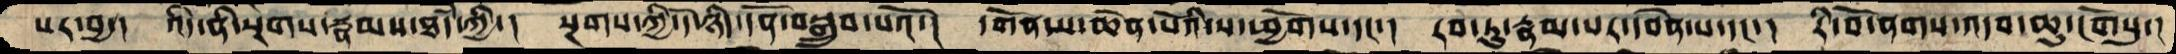པར་བྱ་།  འདི་ནི་སྔགས་རྣམས་ཐཾད་ཀྱི་།  སྔགས་ཀྱི་དེ་ཉིད་དོན་བསྒྲུབ་པའོ་།  དགོན་པ་ཆེན་པོའི་ས་ཕྱྱོགས་དང་།  རབ་ཏུ་རྣམ་པར་དབེན་པ་དང་།  རི་བོ་ནགས་འདབ་ཆུ་ངོགསུ་།
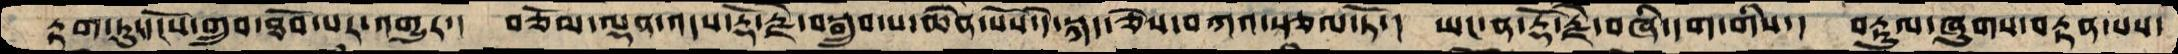རྟག་ཏུ་དངོས་གྲུབ་ཐོབ་པར་འགྱུར་།  བཅོམ་ལྡན་འདས་རྡོ་རྗེ་བསྒྲུབ་པ་ཆེན་པོས་དེ་སྐད་ཅེས་བཀའ་སྩལ་ཏོ་།  ཡང་ན་རྡོ་རྗེ་བཞི་དག་གིས་།  བརྟུལ་ཞུགས་བརྟན་པས་
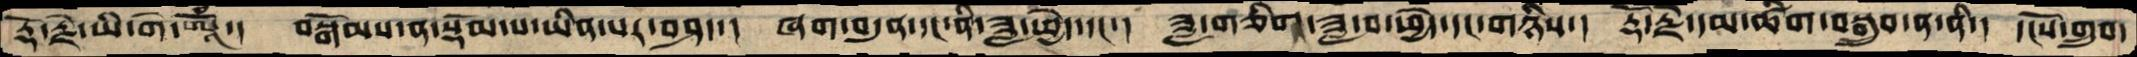རྡོ་རྗེ་ཡི་གེ་ཨཱོཾ་།  བསྒོམས་ན་སྡོམ་པ་ཡིན་པར་བཤད་།  ཞག་བདུན་དང་ནི་ཟླ་ཕྱེད་དང་།  ཟླ་གཅིག་ཟླ་བ་ཕྱེད་དང་གཉིས་།  རྡོ་རྗེ་དམ་ཚིག་བསྒྲུབ་ན་ནི་།  དངོས་གྲུབ་
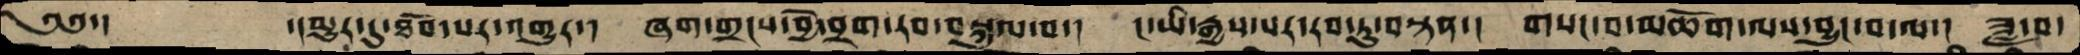༄༅་།   ་།མྱུར་དུ་ཐོབ་པར་འགྱུར་།  ཞག་གྲངས་བྱེ་བྲག་རབ་བསྐུལ་བ་།  ང་ཡིས་རྒྱས་པར་རབ་ཏུ་བསྟན་།  གསང་བ་མཆོག་ལས་བྱུང་བ་ལ་།  ཟླ་བ་
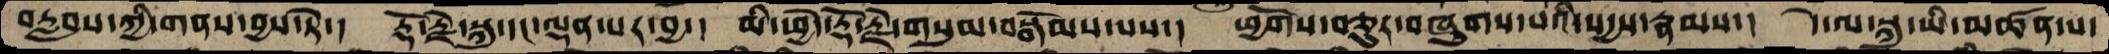བརླབས་ཀྱི་གནས་བྱས་ཏེ་།  རྡོ་རྗེ་སྐུ་དང་ལྡན་པར་བྱ་།  མི་ཕྱེད་རྡོ་རྗེ་གསུམ་བསྒོམས་པས་།  ཕྱོགས་བཅུར་བཞུགས་པའི་སདྱས་རྣམས་།  དེ་ལ་སྐུ་ཡི་མཚན་པ་
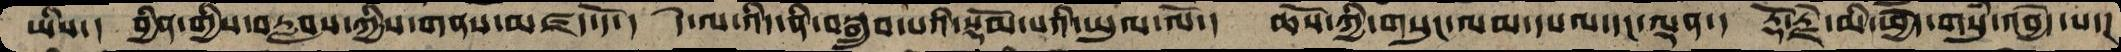ཡིས་།  བྱིན་གྱིས་བརླབས་ཀྱིས་གནས་མཛད་དོ་།  དེ་ལ་འདི་ནི་བསྒྲུབ་པའིི་སྡོམ་པའི་ཡུལ་ལོ་།  ཆོས་ཀྱི་གསུང་ལམ་དཔལ་དང་ལྡན་།  རྡོ་རྗེ་མི་ཕྱེད་གསུཾ་འབྱེད་པ་།
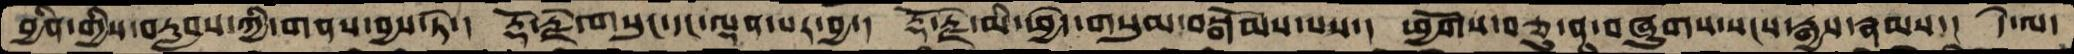བྱིན་གྱིས་བརླབས་ཀྱི་གནས་བྱས་ཏེ་།  རྡོ་རྗེ་གསུང་དང་ལྡན་པར་བྱ་།  རྡོ་རྗེ་མི་ཕྱེད་གསུམ་བསྒོམས་པས་།   ཕྱོགས་བཅུ་ན་བཞུགས་སངས་རྒྱས་རྣམས་།   དེ་ལ་
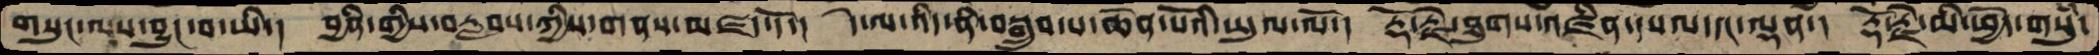གསུང་ལས་བྱང་བ་ཡི་།  བྱིན་གྱིས་བརླབས་ཀྱིས་གནས་མཛད་དོ་།   དེ་ལ་འདི་ནི་བསྒྲུབ་པ་ཆེན་པོའི་ཡུལ་ལོ་།  རྡོ་རྗེ་ཐུགས་འཛིན་དཔལ་དང་ལྡན་།  རྡོ་རྗེ་མི་ཕྱེད་གསུཾ་
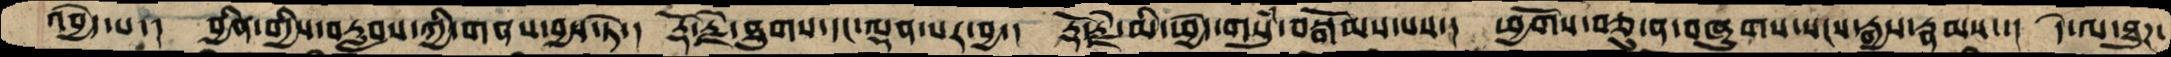འབྱེད་པ་།  བྱིན་གྱིས་བརླབས་ཀྱི་གནས་བྱས་ཏེ་།  རྡོ་རྗེ་ཐུགས་དང་ལྡན་པར་བྱ་།  རྡོ་རྗེ་མི་ཕྱེད་གསུཾ་བསྒོམས་པས་།  ཕྱོགས་བཅུ་ན་བཞུགས་སངས་རྒྱས་རྣམས་།  དེ་ལ་ཐུཌ་
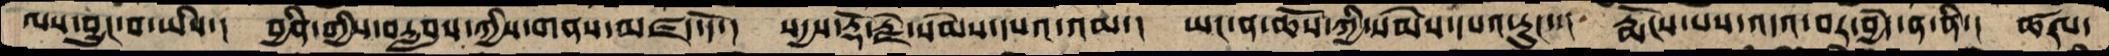ལས་བྱུང་བ་ཡིས་།  བྱིན་གྱིས་བརླབས་ཀྱིས་གནས་མཛད་དོ་།  སདྱས་རྡོ་རྗེ་སེམས་དཔའ་འམ་།  ཡང་ན་ཆོས་ཀྱི་སེམས་དཔའ་རུང་་།  རྨོངས་པས་འདའ་བར་བྱེད་ན་ནི་།  ཚལ་
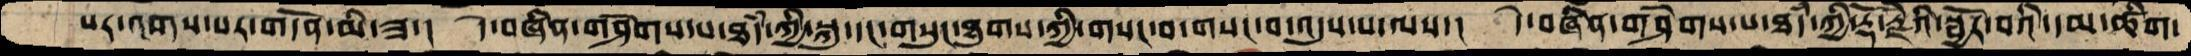སར་འགས་པར་གདོན་མི་ཟ་།  དེ་བཞིན་གཤེགས་པ་ཐཾད་ཀྱི་སྐུ་དང་གསུང་ཐུགས་ཀྱི་གསང་བ་གསང་བ་འདུས་པ་ལས་།  དེ་བཞིན་གཤེགས་པ་ཐཾད་ཀྱི་རྡོ་རྗེའི་སྦྱོར་བའི་དམ་ཚིག་
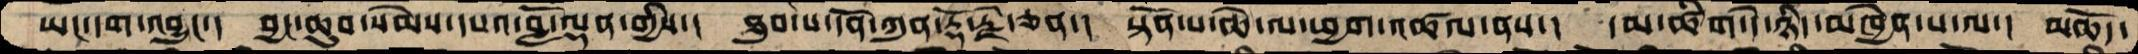ཡང་དག་འབྱུང་།  བྱང་ཆུབ་སེམས་དཔའ་བློ་ལྡན་གྱིས་།  ཐུབ་པ་དོན་ཀུན་རྡོ་རྗེ་ཅན་།  སྟོན་པ་ཆེ་ལ་ཕྱག་འཚལ་ནས་།  དམ་ཚིག་དེ་ཉིད་མཁྱེན་པ་ལ་།   མཆོད་
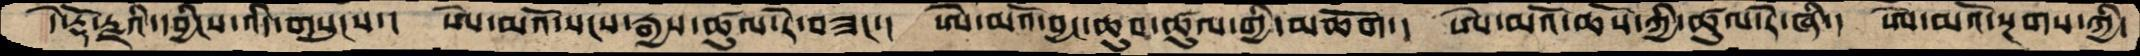དེ་རྡོ་རྗའི་དབྱིངས་འདི་གསུངས་།  ཨེ་མའོ་སངས་རྒྱས་ཚུལ་རེ་བཟང་།  ཨེ་མའོ་བྱང་ཆུབ་ཚུལ་གྱི་མཆོག།  ཨེ་མའོ་ཆོས་ཀྱི་ཚུལ་རེ་ཞི་།   ཨེ་མའོ་སྔགས་ཀྱི་
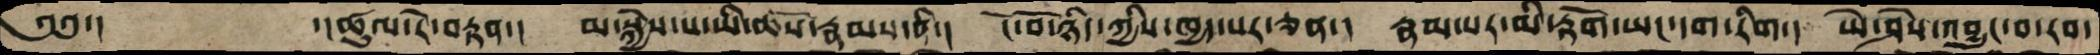༄༅་།        ་།ཚུལ་རེ་བརྟན་།  མ་སྐྱེས་པ་ཡི་ཆོས་རྣམས་ནི་།  ངོ་བོ་ཉིད་ཀྱིས་ཁྱད་པར་ཅན་།  རྣམ་པར་མི་རྟོག་ཡང་དག་རིག་།  ཡེ་ཤེས་འབྱུང་བ་རབ་
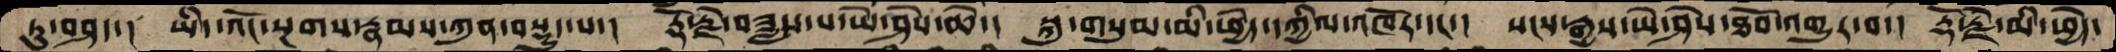ཏུ་བཤད་།  ཡིད་འོང་སྔགས་རྣམས་ཀུན་བསྡུད་པ་།  རྡོ་རྗེ་བཟླས་པ་ཡེ་ཤེས་ཆེ་།  སྐུ་གསུམ་མི་ཕྱེད་དཀྱིལ་འཁོར་དང་།  སངས་རྒྱས་ཡེ་ཤེས་ཐོབ་འགྱུར་བ་།  རྡོ་རྗེ་མི་ཕྱེད་
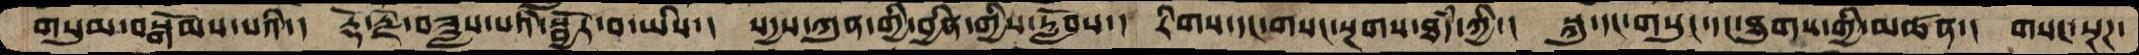གསུམ་བསྒོམས་པའི་།  རྡོ་རྗེ་བཟླས་པའི་སྦྱོར་བ་ཡིས་།  སདྱས་ཀུན་གྱི་བྱིན་གྱིས་རློབས་།  རིགས་དང་གསང་སྔགས་ཐཾད་ཀྱི་།  སྐུ་དང་གསུང་དང་ཐུགས་གྱི་མཚན་།  གསང་སྔཌ་
